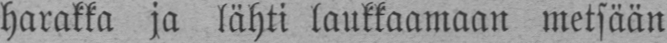harakka ja lähti laukkaamaan metsään
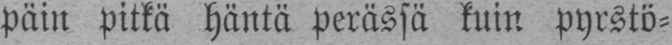Päin pitkä häntä perässä kuin pyrstö-
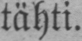tähti.
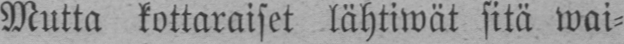Mutta kottaraiset lähtiwät sitä wai-
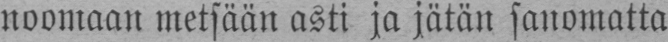noomaan metsään asti ja jätän sanomatta
